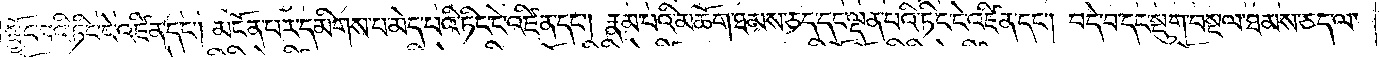སྦྱོང་བའི་ཏིང་ངེ་འཛིན་དང༌། མངོན་པར་དམིགས་པ་མེད་པའི་ཏིང་ངེ་འཛིན་དང༌། རྣམ་པའི་མཆོག་ཐམས་ཅད་དང་ལྡན་པའི་ཏིང་ངེ་འཛིན་དང༌། བདེ་བ་དང་སྡུག་བསྔལ་ཐམས་ཅད་ལ་
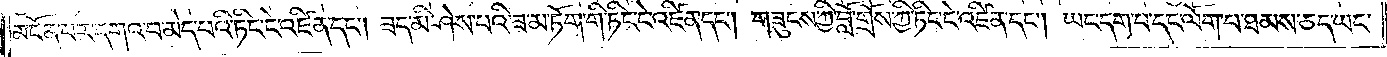མངོན་པར་དགའ་བ་མེད་པའི་ཏིང་ངེ་འཛིན་དང༌། ཟད་མི་ཤེས་པའི་ཟ་མ་ཏོག་གི་ཏིང་ངེ་འཛིན་དང༌། གཟུངས་ཀྱི་བློ་གྲོས་ཀྱི་ཏིང་ངེ་འཛིན་དང༌། ཡང་དག་པ་དང་ལོག་པ་ཐམས་ཅད་ཡང་
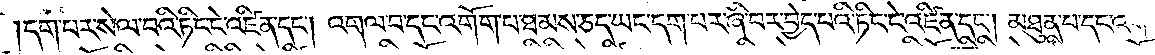དག་པར་སེལ་བའི་ཏིང་ངེ་འཛིན་དང༌། འགལ་བ་དང་འགོག་པ་ཐམས་ཅད་ཡང་དག་པར་ཞི་བར་བྱེད་པའི་ཏིང་ངེ་འཛིན་དང༌། མཐུན་པ་དང་འགལ་
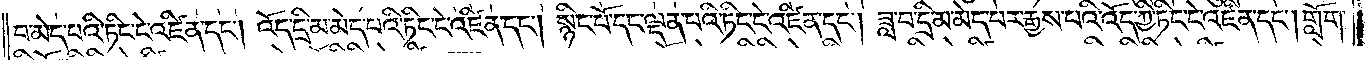བ་མེད་པའི་ཏིང་ངེ་འཛིན་དང༌། འོད་དྲི་མ་མེད་པའི་ཏིང་ངེ་འཛིན་དང༌། སྙིང་པོ་དང་ལྡན་པའི་ཏིང་ངེ་འཛིན་དང༌། ཟླ་བ་དྲི་མ་མེད་པར་རྒྱས་པའི་འོད་ཀྱི་ཏིང་ངེ་འཛིན་དང༌། གློག་
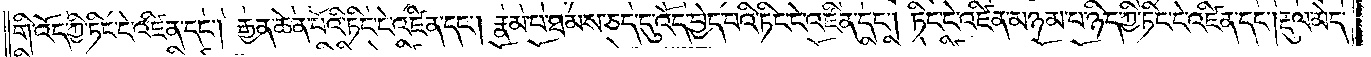གི་འོད་ཀྱི་ཏིང་ངེ་འཛིན་དང༌། རྒྱན་ཆེན་པོའི་ཏིང་ངེ་འཛིན་དང༌། རྣམ་པ་ཐམས་ཅད་དུ་འོད་བྱེད་པའི་ཏིང་ངེ་འཛིན་དང༌། ཏིང་ངེ་འཛིན་མཉམ་པ་ཉིད་ཀྱི་ཏིང་ངེ་འཛིན་དང༌། རྡུལ་མེད་
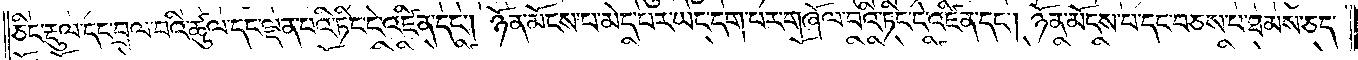ཅིང་རྡུལ་དང་བྲལ་བའི་ཚུལ་དང་ལྡན་པའི་ཏིང་ངེ་འཛིན་དང༌། ཉོན་མོངས་པ་མེད་པར་ཡང་དག་པར་གཞོལ་བའི་ཏིང་ངེ་འཛིན་དང༌། ཉོན་མོངས་པ་དང་བཅས་པ་ཐམས་ཅད་
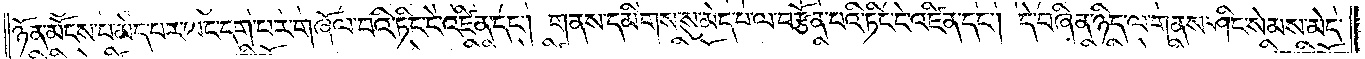ཉོན་མོངས་པ་མེད་པར་ཡང་དག་པར་གཞོལ་བའི་ཏིང་ངེ་འཛིན་དང༌། གནས་དམིགས་སུ་མེད་པ་ལ་བརྩོན་པའི་ཏིང་ངེ་འཛིན་དང༌། དེ་བཞིན་ཉིད་ལ་གནས་ཤིང་སེམས་མེད་
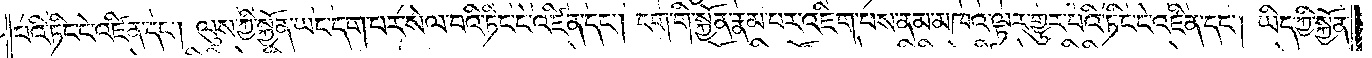པའི་ཏིང་ངེ་འཛིན་དང༌། ལུས་ཀྱི་སྐྱོན་ཡང་དག་པར་སེལ་བའི་ཏིང་ངེ་འཛིན་དང༌། ངག་གི་སྐྱོན་རྣམ་པར་འཇིག་པས་ནམ་མཁའ་ལྟར་གྱུར་པའི་ཏིང་ངེ་འཛིན་དང༌། ཡིད་ཀྱི་སྐྱོན་
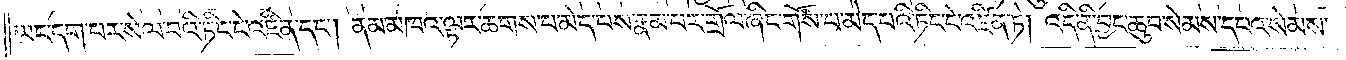ཡང་དག་པར་སེལ་བའི་ཏིང་ངེ་འཛིན་དང༌། ནམ་མཁའ་ལྟར་ཆགས་པ་མེད་པས་རྣམ་པར་གྲོལ་ཞིང་གོས་པ་མེད་པའི་ཏིང་ངེ་འཛིན་ཏེ། འདི་ནི་བྱང་ཆུབ་སེམས་དཔའ་སེམས་
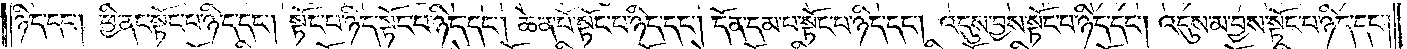ཉིད་དང༌། ཕྱི་ནང་སྟོང་པ་ཉིད་དང༌། སྟོང་པ་ཉིད་སྟོང་པ་ཉིད་དང༌། ཆེན་པོ་སྟོང་པ་ཉིད་དང༌། དོན་དམ་པ་སྟོང་པ་ཉིད་དང༌། འདུས་བྱས་སྟོང་པ་ཉིད་དང༌། འདུས་མ་བྱས་སྟོང་པ་ཉིད་དང༌།
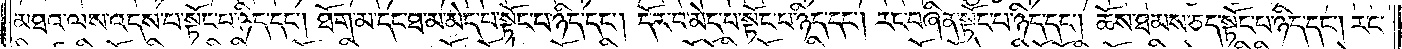མཐའ་ལས་འདས་པ་སྟོང་པ་ཉིད་དང༌། ཐོག་མ་དང་ཐ་མ་མེད་པ་སྟོང་པ་ཉིད་དང༌། དོར་བ་མེད་པ་སྟོང་པ་ཉིད་དང༌། རང་བཞིན་སྟོང་པ་ཉིད་དང༌། ཆོས་ཐམས་ཅད་སྟོང་པ་ཉིད་དང༌། རང་
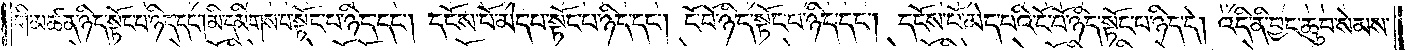གི་མཚན་ཉིད་སྟོང་པ་ཉིད་དང༌། མི་དམིགས་པ་སྟོང་པ་ཉིད་དང༌། དངོས་པོ་མེད་པ་སྟོང་པ་ཉིད་དང༌། ངོ་བོ་ཉིད་སྟོང་པ་ཉིད་དང༌། དངོས་པོ་མེད་པའི་ངོ་བོ་ཉིད་སྟོང་པ་ཉིད་དེ། འདི་ནི་བྱང་ཆུབ་སེམས་
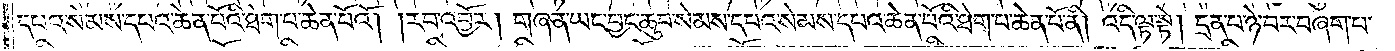དཔའ་སེམས་དཔའ་ཆེན་པོའི་ཐེག་པ་ཆེན་པོའོ། །རབ་འབྱོར། གཞན་ཡང་བྱང་ཆུབ་སེམས་དཔའ་སེམས་དཔའ་ཆེན་པོའི་ཐེག་པ་ཆེན་པོ་ནི་འདི་ལྟ་སྟེ། དྲན་པ་ཉེ་བར་བཞག་པ་
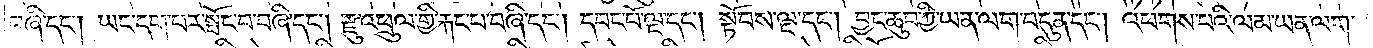བཞི་དང༌། ཡང་དག་པར་སྤོང་བ་བཞི་དང༌། རྫུ་འཕྲུལ་གྱི་རྐང་པ་བཞི་དང༌། དབང་པོ་ལྔ་དང༌། སྟོབས་ལྔ་དང༌། བྱང་ཆུབ་ཀྱི་ཡན་ལག་བདུན་དང༌། འཕགས་པའི་ལམ་ཡན་ལག་
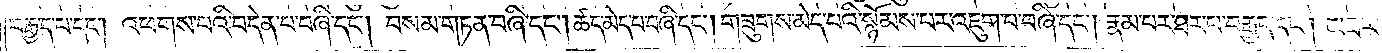བརྒྱད་པ་དང༌། འཕགས་པའི་བདེན་པ་བཞི་དང༌། བསམ་གཏན་བཞི་དང༌། ཚད་མེད་པ་བཞི་དང༌། གཟུགས་མེད་པའི་སྙོམས་པར་འཇུག་པ་བཞི་དང༌། རྣམ་པར་ཐར་པ་བརྒྱད་དང༌། མཐར་
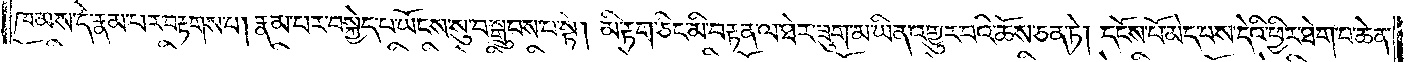ཁམས་དེ་རྣམ་པར་བརྟགས་པ། རྣམ་པར་བསྐྱེད་པ་ཡོངས་སུ་བསྒྲུབས་པ་སྟེ། མི་རྟག་ཅིང་མི་བརྟན་ལ་ཐེར་ཟུག་མ་ཡིན་འགྱུར་བའི་ཆོས་ཅན་ཏེ། དངོས་པོ་མེད་པས་དེའི་ཕྱིར་ཐེག་པ་ཆེན་
